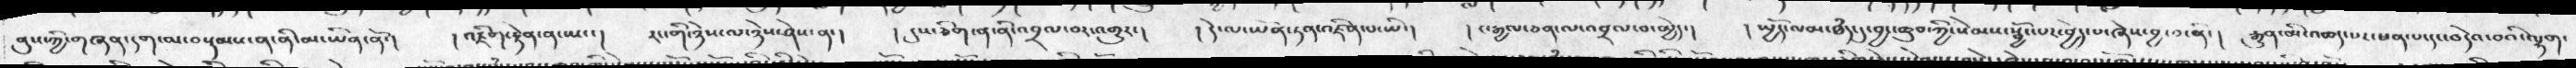ནུས་ཀྱི་གཞན་དག་མ་བསྡམས་ན་ནི་མ་ཡིན་ནོ་།  །  འཇིག་རྟེན་ན་ཡང་།  རང་གི་ཉེས་ཉེས་ཤེས་ན་།  །  དུས་ཅིག་ན་ནི་འབྲལ་བར་འགྱུར་།  ། དེ་ལ་ཡོན་ཏན་འཛིན་པ་ཡི་།  ། ང་རྒྱལ་ཅན་ལ་འབྲལ་བ་མྱེད་།  ། སྤྱོད་ལམ་ཐཾད་དུ་བྱང་ཆུབ་ཀྱི་སེམས་སྦྱོང་པར་བྱེད་པ་ཞེས་བྱ་བ་ནི་།  རྒུན་མི་འཆད་པར་ཕན་པ་དང་བདེའ་བའི་ལྷག་
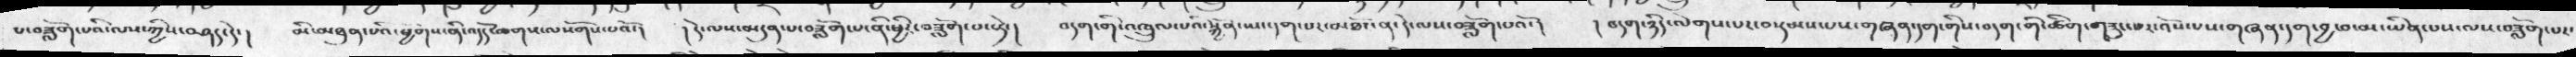པ་བཟློག་པའི་ལས་ཀྱིས་བཤད་དེ་།  མི་མཐུན་པའི་ཕྱགས་ནི་འདོད་ཆགས་ལསོགས་པའོ་།  ། དེ་ལས་མདུན་པ་བཟློག་པ་ནི་ཕྱིར་བཟློག་པ་སྟེ་།   བདག་གི་འཁྲུལ་པའི་སྐྱོན་ཡང་དག་པར་མཐོང་ན་དེ་ལས་བཟློག་པའོ་།  ། བདག་ཉིད་ལེགས་པར་བསྡམས་པས་གཞན་དག་གིས་བདག་གི་ཚིག་གཟུང་པར་འོས་པས་གཞན་དག་བྱ་བ་མ་ཡིན་པས་ལས་བཟློག་པར་
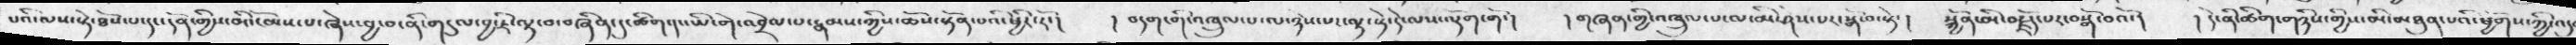པའི་ལས་སྟེ་ཐོས་པ་དང་དོན་གྱིས་མི་ངོམས་པ་ཞེས་བྱ་བ་ནི་གདུལ་བྱ་ཇི་ལྟ་བ་བཞིན་དུ་ཚིག་དང་ཡི་གེ་འབྲེལ་པ་རྣམས་ཀྱིས་ཆོས་སྟོན་པའི་ཕྱིརོ་།   ། བདག་གི་འཁྲུལ་པ་ལ་ཉེས་པར་ལྟ་སྟེ་དེ་ལས་ལྡོག་གོ་།    །གཞན་གྱི་འཁྲུལ་པ་ལ་མི་ཤེས་པར་སྒོ་བ་སྟེ་།   སྐྱོན་མི་བརྗོད་པར་བསྒོ་བའོ་།   ། དེ་ནི་ཚིག་གཉིས་གྱིས་མི་མཐུན་པའི་ཕྱོགས་ཀྱི་འདུ་
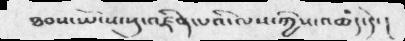ཐབས་ཡོངས་སུ་འཛིན་པའི་ལས་ཀྱིས་འཆད་དེ་།
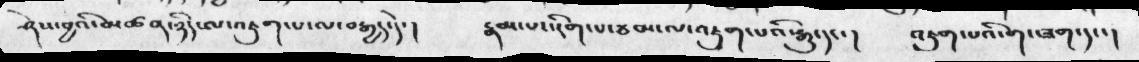ཤེས་བྱའི་མཚན་ཉིད་ལ་འཇུག་པ་ལ་བརྒྱད་དེ་།   རྣམ་པར་རིག་པ་ཐབས་ལ་འཇུག་པའི་རྒྱུ་དང་།   འཇུག་པའི་གང་ཟག་དང་།
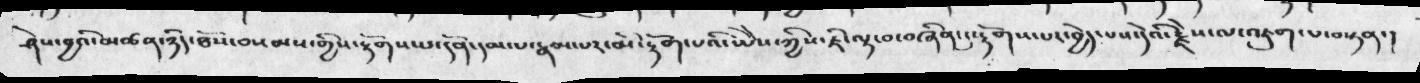ཤེས་བྱའི་མཚན་ཉིད་ཐོས་བསམ་གྱིས་རྟོགས་པ་དོན་དམ་པ་རྣམ་པར་མི་རྟོག་པའི་ཡེེས་ཀྱིས་ཇི་ལྟ་བ་བཞིན་དུ་རྟོགས་པར་བྱེད་པས་དེའི་རྗེས་ལ་འཇུག་པ་བསྟན་།
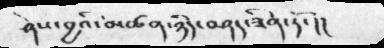ཤེས་བྱའི་མཚན་ཉིད་བཤད་ཟིན་ཏོ་།།
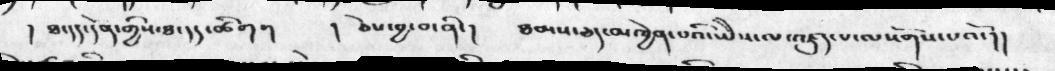།   ཐ་དད་དོན་གྱིས་ཐ་དད་ཚིག །       །   ཅེས་བྱ་བ་ནི་།    ཐམས་ཅད་མཁྱེན་པའི་ཡེེས་ལ་འཛུད་པ་ལསོགས་པའོ་།།
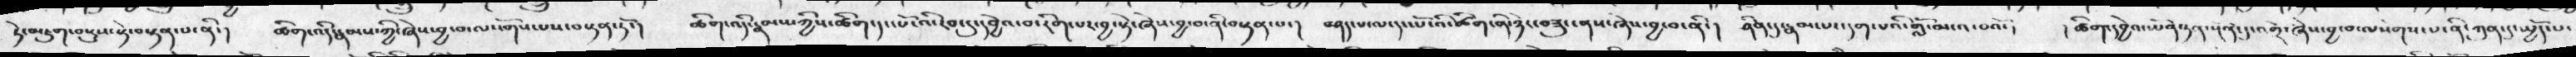དེ་མཇུག་བསྡུས་སྟེ་བསྟན་པ་ནི་།  ཚིག་འདི་རྣམས་ཀྱི་ཞེས་བྱ་བ་ལསོགས་པས་བསྟན་ཏོ་།  ཚིག་འདི་རྣམས་ཀྱིས་ཚིག་དང་པོ་འི་རབ་དུ་དབྱེའ་བ་རིག་པར་བྱ་སྟེ་ཞེས་བྱ་བ་ནི་བསྟན་པ་།  བཤད་པ་ལ་དང་པོ་འི་ཚིག་ནི་ཉེར་བཟུང་ནས་ཞེས་བྱ་བ་ནི་།  ཤིན་དུ་རྣམ་པར་དག་པའི་གློ་མངའ་བའོ་།  ། ཚིག་དབྱེའ་ཡོན་ཏན་སྔོན་དུ་འགྲོ་ཞེས་བྱ་བ་ལསོགས་པ་ནི་ཀུན་དུ་སྤྱོད་པ་
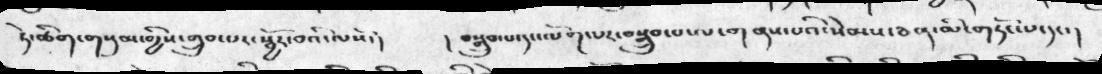ཏེ་ཆིག་གསུམ་གྱིས་གྲུབ་པར་སྦྱོར་བའི་ལསོ་།    ། བསྒྲུབ་པ་དང་ལོག་པར་བསྒྲུབ་པ་ལ་གནས་པའི་སེམས་ཅན་མི་གཏོང་པ་དང་།
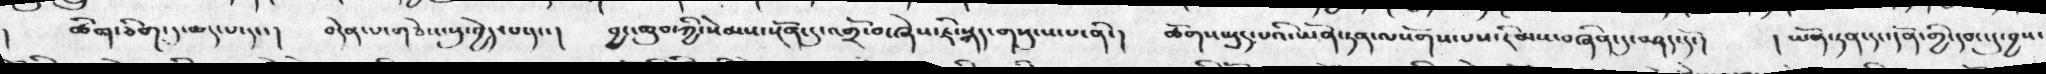ཚེག་ཅིག་དུ་ཆད་པ་དང་།  བདེན་པ་གཅེས་སུ་བྱེད་པ་དང་།  བྱང་ཆུབ་ཀྱི་སེམས་སྔོན་དུ་འགྲོ་བ་ཞེས་ཇི་སྐད་གསུངས་པ་ནི་།  ཆོགསཡུད་པའི་ཡོན་ཏན་ལསོགས་པས་རིམས་བཞིན་དུ་བཤད་དོ་།   །ཡོན་ཏན་དང་དོན་གྱི་དབང་དུ་བྱས་
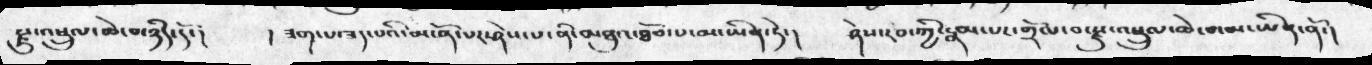རྫུ་འཕྲུལ་ཆེ་བ་ཉིད་དོ་།    ། ཟག་པ་ཟད་པའི་མངོན་པར་ཤེས་པ་ནི་མཐུའ་ཐོབ་པ་མ་ཡིན་ཏེ་།   ཤེས་རབ་ཀྱི་རྣམ་པར་གྲོལ་བ་རྫུ་འཕྲུལ་ཆེ་བ་མ་ཡིན་ནོ་།
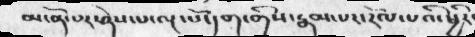མངོན་པར་ཤེས་པ་ལྔ་པོ་དག་གིས་རྣམ་པར་རོལ་པའི་ཕྱིར་
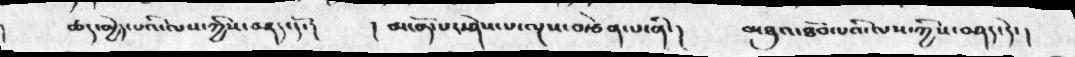།    ཆད་མྱེད་པའི་ལས་ཀྱིས་བཤད་དོ་།    ། མངོན་པར་ཤེས་པ་ལྔས་བརྩེན་པ་ནི་།     མཐུའ་ཐོབ་པའི་ལས་ཀྱིས་བཤད་དེ་།
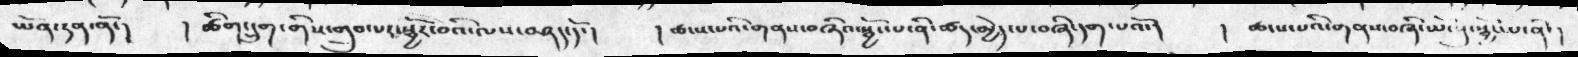ཡོན་ཏན་ནོ་།  ། ཚིག་དྲུག་གིས་གྲུབ་པར་སྦྱོར་བའི་ལས་བཤད་དོ་།  །  ཚངས་པའི་གནས་བཞིའ་སྦྱོང་པ་ནི་ཚད་མྱེད་པ་བཞི་དག་པའོ་།  ། ཚངས་པའི་གནས་བཞི་ཆོས་སུ་སྦྱོང་པ་ནི་།
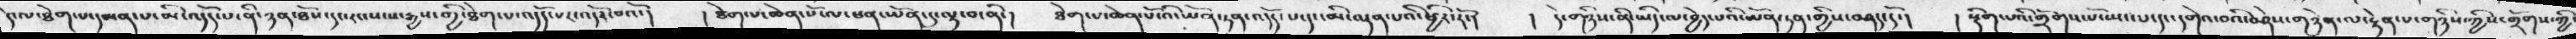དེ་ལ་ཐེག་པ་དམན་པ་མི་འདོད་པ་ནི་ཉན་ཐོས་དང་རང་སངས་རྒྱས་གྱི་ཐེག་པ་འདོད་པར་འདོར་བའོ་།   །ཐེག་པ་ཆེན་པོ་ལ་ཕན་ཡོན་དང་ལྟ་བ་ནི་།  ཐེག་པ་ཆེན་པོ་འི་ཡོན་ཏན་འདོད་པ་དང་མི་བདན་པའི་སྦྱོར་རོ་།   །  དེ་གཉིས་ནི་ཡིད་ལ་བྱེད་པའི་ཡོན་ཏན་གྱིས་བཤད་དོ་།  །   སྡིག་པའི་གྲོགས་པོ་སྤང་པ་དང་དགེའ་བའི་བཤེས་གཉེན་ལ་རྟེན་པ་གཉིས་ཀྱིས་གྲོགས་ཀྱི་
